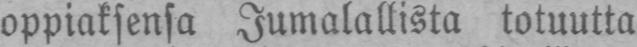oppiaksensa Jumalallista totuutta
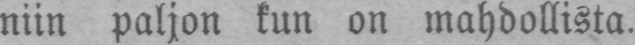niin paljon kun on mahdollista.
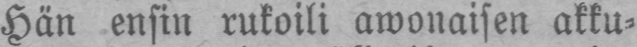Hän ensin rukoili awonaisen akku-
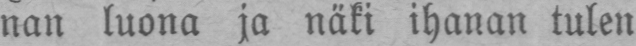nan luona ja näki ihanan tulen
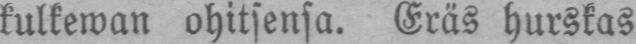kulkewan ohitsensa. Eräs hurskas
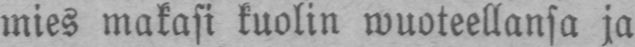mies makasi kuolin wuoteellansa ja
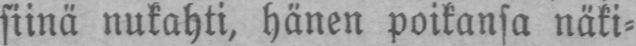siinä nukahti, hänen poikansa näki-
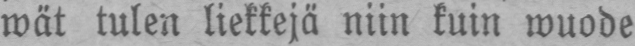wät tulen liekkejä niin kuin wuode
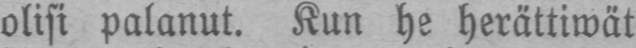olisi palanut. Kun he herättiwät
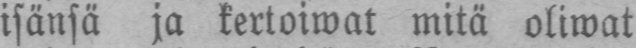isänsä ja kertoiwat mitä oliwat
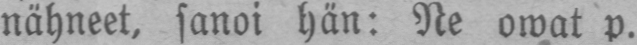nähneet, sanoi hän: Ne owat p.
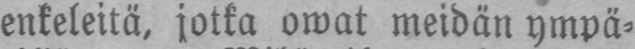enkeleitä, jotka owat meidän ympä-
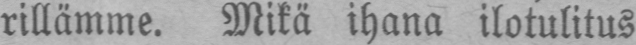rillämme. Mikä ihana ilotulitus
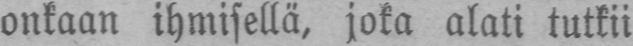onkaan ihmisellä, joka alati tutkii
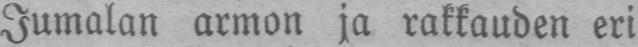Jumalan armon ja rakkauden eri
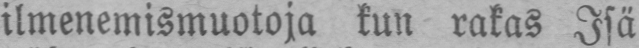ilmenemismuotoja kun rakas Isä
